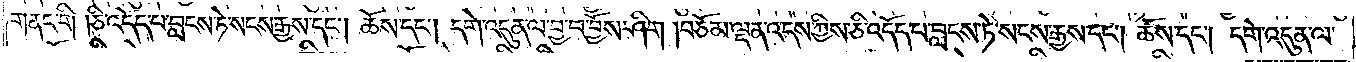གནང་གི །ཅི་འདོད་པ་བླངས་ཏེ་སངས་རྒྱས་དང༌། ཆོས་དང༌། དགེ་འདུན་ལ་བྱ་བ་བྱོས་ཤིག །བཅོམ་ལྡན་འདས་ཀྱིས་ཅི་འདོད་པ་བླངས་ཏེ་སངས་རྒྱས་དང༌། ཆོས་དང༌། དགེ་འདུན་ལ་
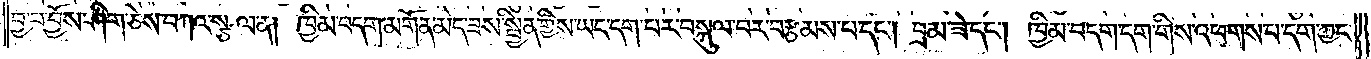བྱ་བ་བྱོས་ཤིག་ཅེས་བཀའ་སྩལ་ན། ཁྱིམ་བདག་མགོན་མེད་ཟས་སྦྱིན་གྱིས་ཡང་དག་པར་བསྐུལ་བར་བརྩམས་པ་དང༌། བྲམ་ཟེ་དང༌། ཁྱིམ་བདག་དག་གིས་འཕགས་པ་དག་ཀྱང་
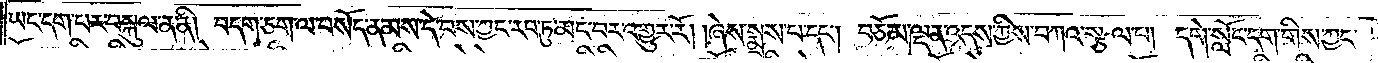ཡང་དག་པར་བསྐུལ་ན་ནི། བདག་ཅག་ལ་བསོད་ནམས་དེ་བས་ཀྱང་རབ་ཏུ་མང་བར་འགྱུར་རོ། །ཞེས་སྨྲས་པ་དང༌། བཅོམ་ལྡན་འདས་ཀྱིས་བཀའ་སྩལ་པ། དགེ་སློང་དག་གིས་ཀྱང་
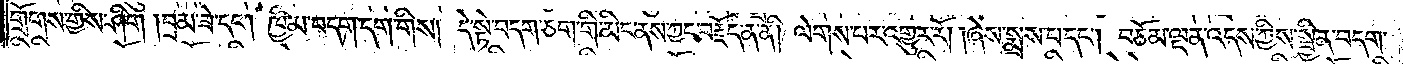གྲོགས་གྱིས་ཤིག །བྲམ་ཟེ་དང༌། ཁྱིམ་བདག་དག་གིས། དེ་སྟེ་བདག་ཅག་གི་མིང་ནས་ཀྱང་བརྗོད་ན་ནི། ལེགས་པར་འགྱུར་རོ། །ཞེས་སྨྲས་པ་དང༌། བཅོམ་ལྡན་འདས་ཀྱིས་སྦྱིན་བདག་
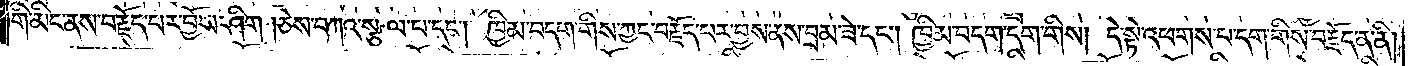གི་མིང་ནས་བརྗོད་པར་བྱོས་ཤིག །ཅེས་བཀའ་སྩལ་པ་དང༌། ཁྱིམ་བདག་གིས་ཀྱང་བརྗོད་པར་བྱས་ནས་བྲམ་ཟེ་དང༌། ཁྱིམ་བདག་དག་གིས། དེ་སྟེ་འཕགས་པ་དག་གིས་བརྗོད་ན་ནི།
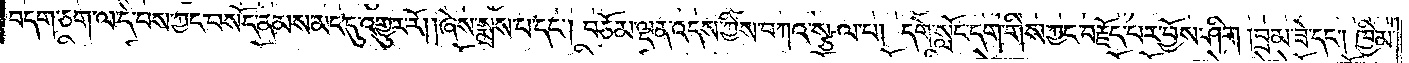བདག་ཅག་ལ་དེ་བས་ཀྱང་བསོད་ནམས་མང་དུ་འགྱུར་རོ། །ཞེས་སྨྲས་པ་དང༌། བཅོམ་ལྡན་འདས་ཀྱིས་བཀའ་སྩལ་པ། དགེ་སློང་དག་གིས་ཀྱང་བརྗོད་པར་བྱོས་ཤིག །བྲམ་ཟེ་དང༌། ཁྱིམ་
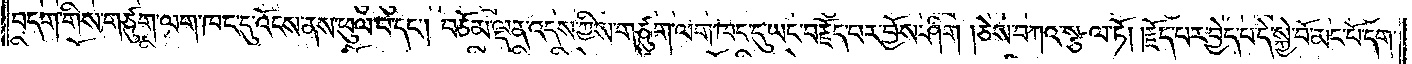བདག་གིས་གཙུག་ལག་ཁང་དུ་འོངས་ནས་ཕུལ་བ་དང༌། བཅོམ་ལྡན་འདས་ཀྱིས་གཙུག་ལག་ཁང་དུ་ཡང་བརྗོད་པར་བྱོས་ཤིག །ཅེས་བཀའ་སྩལ་ཏོ། །རྗོད་པར་བྱེད་པ་དེ་སྐྱེ་བོ་མང་པོ་དག་
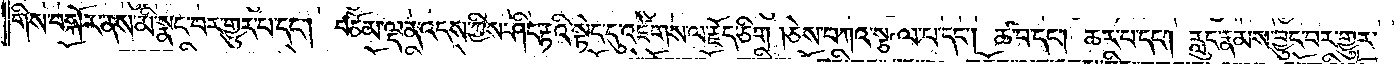གིས་བསྐོར་ནས་མི་སྣང་བར་གྱུར་པ་དང༌། བཅོམ་ལྡན་འདས་ཀྱིས་ཤིང་རྟའི་སྟེང་དུ་འཛེགས་ལ་རྗོད་ཅིག །ཅེས་བཀའ་སྩལ་པ་དང༌། ཚ་བ་དང༌། ཆར་པ་དང༌། རླུང་རྣམས་བྱུང་བར་གྱུར་
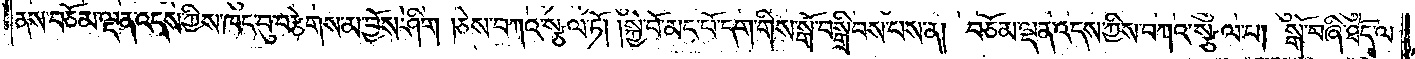ནས་བཅོམ་ལྡན་འདས་ཀྱིས་ཁང་བུ་བརྩེགས་མ་བྱོས་ཤིག །ཅེས་བཀའ་སྩལ་ཏོ། །སྐྱེ་བོ་མང་པོ་དག་གིས་སྒོ་བསྒྲིབས་པས་ན། བཅོམ་ལྡན་འདས་ཀྱིས་བཀའ་སྩལ་པ། སྒོ་བཞི་ཐོད་ལ་
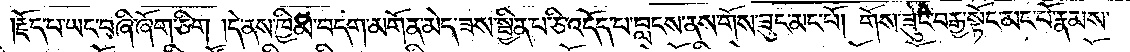རྗོད་པ་ཡང་བཞི་ཞོག་ཅིག །དེ་ནས་ཁྱིམ་བདག་མགོན་མེད་ཟས་སྦྱིན་པ་ཅི་འདོད་པ་བླངས་ནས་གོས་ཟུང་མང་པོ། གོས་ཟུང་བརྒྱ་སྟོང་མང་པོ་རྣམས་
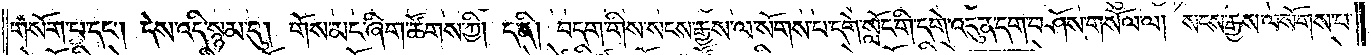གསོག་པ་དང༌། དེས་འདི་སྙམ་དུ། གོས་མང་ཞིག་ཚོགས་ཀྱི། ད་ནི། བདག་གིས་སངས་རྒྱས་ལ་སོགས་པ་དགེ་སློང་གི་དགེ་འདུན་དག་བཤོས་གསོལ་ལ། སངས་རྒྱས་ལ་སོགས་པ་
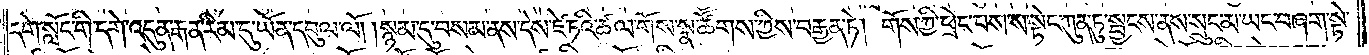དགེ་སློང་གི་དགེ་འདུན་རྒན་རིམ་དུ་ཡོན་དབུལ་ལོ། །སྙམ་དུ་བསམ་ནས་དེས་ཛེ་ཏའི་ཚལ་གོས་སྣ་ཚོགས་ཀྱིས་བརྒྱན་ཏེ། གོས་ཀྱི་ཕྲེང་བས་ས་སྟེང་ཀུན་ཏུ་སྦྱངས་ནས་སྲུང་མ་ཡང་བཞག་སྟེ་
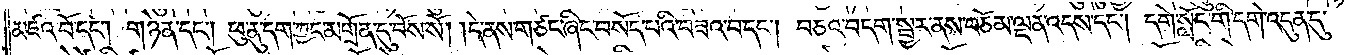མཛའ་བོ་དང༌། གཉེན་དང༌། ཕུ་ནུ་དག་ཀྱང་མགྲོན་དུ་བོས་སོ། །དེ་ནས་གཙང་ཞིང་བསོད་པའི་བཟའ་བ་དང༌། བཅའ་བདག་སྦྱར་ནས་བཅོམ་ལྡན་འདས་དང༌། དགེ་སློང་གི་དགེ་འདུན་དུ་
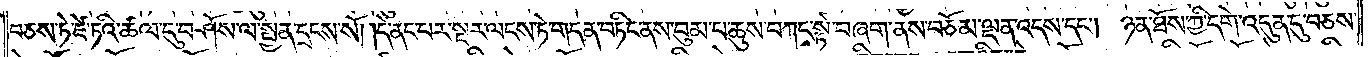བཅས་ཏེ་ཛེ་ཏའི་ཚལ་དུ་བཤོས་ལ་སྤྱན་དྲངས་སོ། །དེ་ནང་པར་སྔར་ལངས་ཏེ་གདན་བཏིང་ནས་བུམ་པ་ཆུས་བཀང་སྟེ་བཞག་ནས་བཅོམ་ལྡན་འདས་དང༌། ཉན་ཐོས་ཀྱི་དགེ་འདུན་དུ་བཅས་
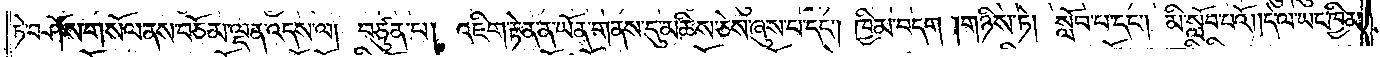ཏེ་བཤོས་གསོལ་ནས་བཅོམ་ལྡན་འདས་ལ། བཙུན་པ། འཇིག་རྟེན་ན་ཡོན་གནས་དུ་མཆིས་ཅེས་ཞུས་པ་དང༌། ཁྱིམ་བདག །གཉིས་ཏེ། སློབ་པ་དང༌། མི་སློབ་པའོ། །དེ་ལ་ཡང་ཁྱིམ་
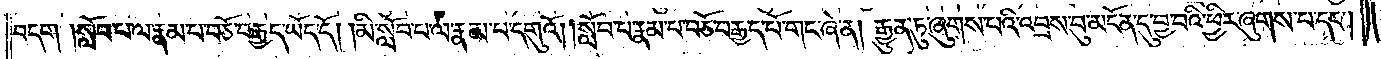བདག །སློབ་པ་ལ་རྣམ་པ་བཅོ་བརྒྱད་ཡོད་དོ། །མི་སློབ་པ་ལ་རྣམ་པ་དགུའོ། །སློབ་པ་རྣམ་པ་བཅོ་བརྒྱད་པོ་གང་ཞེ་ན། རྒྱུན་ཏུ་ཞུགས་པའི་འབྲས་བུ་མངོན་དུ་བྱ་བའི་ཕྱིར་ཞུགས་པ་དང༌།
